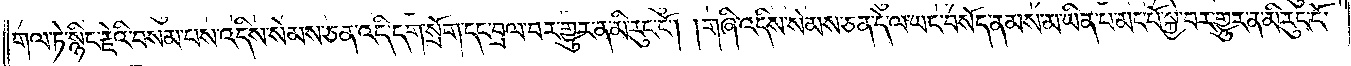གལ་ཏེ་སྙིང་རྗེའི་བསམ་པས་འདིས་སེམས་ཅན་འདི་དག་སྲོག་དང་བྲལ་བར་གྱུར་ན་མི་རུང་ངོ༌། །གཞི་འདིས་སེམས་ཅན་དེ་ལ་ཡང་བསོད་ནམས་མ་ཡིན་པ་མང་པོ་སྐྱེ་བར་གྱུར་ན་མི་རུང་ངོ་
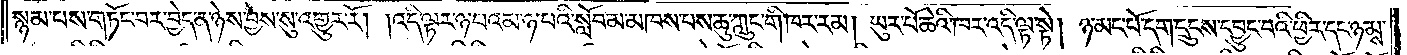སྙམ་པས་གཏོང་བར་བྱེད་ན་ཉེས་བྱས་སུ་འགྱུར་རོ། །འདི་ལྟར་ཉ་པའམ་ཉ་པའི་སློབ་མ་མཁས་པས་ཆུ་ཀླུང་གི་ཁར་རམ། ཡུར་པོ་ཆེའི་ཁར་འདི་ལྟ་སྟེ། ཉ་མང་པོ་དག་དྲུངས་དབྱུང་བའི་ཕྱིར་དང་ཉམས་
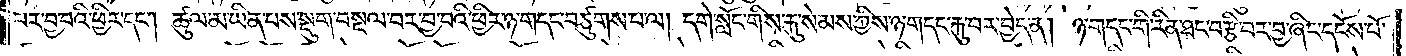པར་བྱ་བའི་ཕྱིར་དང༌། ཚུལ་མ་ཡིན་པས་སྡུག་བསྔལ་བར་བྱ་བའི་ཕྱིར་ཉ་གདང་བཙུགས་པ་ལ། དགེ་སློང་གིས་རྐུ་སེམས་ཀྱིས་ཉ་གདང་རྐུ་བར་བྱེད་ན། ཉ་གདང་གི་རིན་ཐང་བརྩི་བར་བྱ་ཞིང་དངོས་པོ་
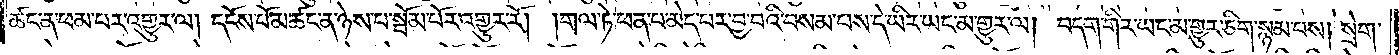ཚང་ན་ཕམ་པར་འགྱུར་ལ། དངོས་པོ་མ་ཚང་ན་ཉེས་པ་སྦོམ་པོར་འགྱུར་རོ། །གལ་ཏེ་ཕན་པ་མེད་པར་བྱ་བའི་བསམ་པས་དེ་ཡིར་ཡང་མ་གྱུར་ལ། བདག་གིར་ཡང་མ་གྱུར་ཅིག་སྙམ་པས། སྲེག་
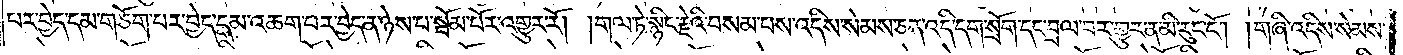པར་བྱེད་དམ་གཅོག་པར་བྱེད་དམ་འཆག་པར་བྱེད་ན་ཉེས་པ་སྦོམ་པོར་འགྱུར་རོ། །གལ་ཏེ་སྙིང་རྗེའི་བསམ་པས་འདིས་སེམས་ཅན་འདི་དག་སྲོག་དང་བྲལ་བར་གྱུར་ན་མི་རུང་ངོ༌། །གཞི་འདིས་སེམས་
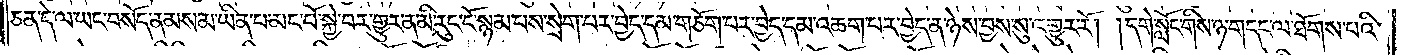ཅན་དེ་ལ་ཡང་བསོད་ནམས་མ་ཡིན་པ་མང་པོ་སྐྱེ་བར་གྱུར་ན་མི་རུང་ངོ་སྙམ་པས་སྲེག་པར་བྱེད་དམ་གཅོག་པར་བྱེད་དམ་འཆག་པར་བྱེད་ན་ཉེས་བྱས་སུ་འགྱུར་རོ། །དགེ་སློང་གིས་ཉ་གདང་ལ་ཐོགས་པའི་
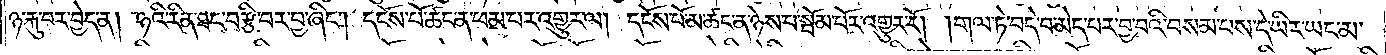ཉ་རྐུ་བར་བྱེད་ན། ཉའི་རིན་ཐང་བརྩི་བར་བྱ་ཞིང༌། དངོས་པོ་ཚང་ན་ཕམ་པར་འགྱུར་ལ། དངོས་པོ་མ་ཚང་ན་ཉེས་པ་སྦོམ་པོར་འགྱུར་རོ། །གལ་ཏེ་བདེ་བ་མེད་པར་བྱ་བའི་བསམ་པས་དེ་ཡིར་ཡང་མ་
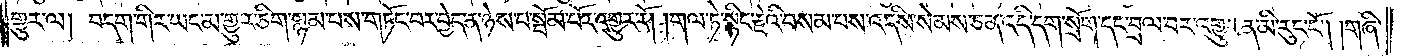གྱུར་ལ། བདག་གིར་ཡང་མ་གྱུར་ཅིག་སྙམ་པས་གཏོང་བར་བྱེད་ན་ཉེས་པ་སྦོམ་པོར་འགྱུར་རོ། །གལ་ཏེ་སྙིང་རྗེའི་བསམ་པས་འདིས་སེམས་ཅན་འདི་དག་སྲོག་དང་བྲལ་བར་འགྱུར་ན་མི་རུང་ངོ༌། །གཞི་
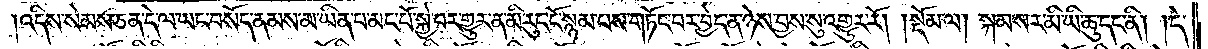འདིས་སེམས་ཅན་དེ་ལ་ཡང་བསོད་ནམས་མ་ཡིན་པ་མང་པོ་སྐྱེ་བར་གྱུར་ན་མི་རུང་ངོ་སྙམ་པས་གཏོང་བར་བྱེད་ན་ཉེས་བྱས་སུ་འགྱུར་རོ། །སྡོམ་ལ། སྐམ་སར་མི་ཡི་ཆུ་དང་ནི། དེ་
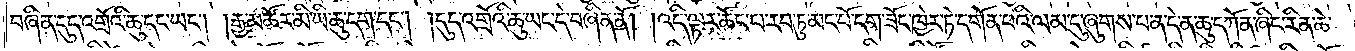བཞིན་དུད་འགྲོའི་ཆུ་དང་ཡང༌། །རྒྱ་མཚོར་མི་ཡི་ཆུ་དག་དང༌། །དུད་འགྲོའི་ཆུ་ཡང་དེ་བཞིན་ནོ། །འདི་ལྟར་ཚོང་པ་རབ་ཏུ་མང་པོ་དག་ཟོང་ཁྱེར་ཏེ་དགོན་པའི་ལམ་དུ་ཞུགས་པ་ན་དེ་ན་ཆུ་དཀོན་ཞིང་རིན་ཆེ་
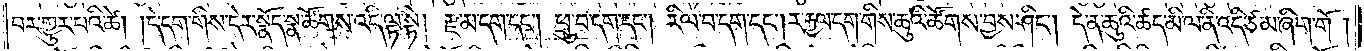བར་གྱུར་པའི་ཚེ། །དེ་དག་གིས་དེར་སྣོད་སྣ་ཚོགས་འདི་ལྟ་སྟེ། རྫ་མ་དག་དང༌། ཕྲུ་བ་དག་དང༌། རིལ་བ་དག་དང༌། ར་རྐྱལ་དག་གིས་ཆུའི་ཚོགས་བྱས་ཤིང༌། དེ་ན་ཆུའི་ཚད་མི་ལ་ནི་འདི་ཙམ་ཞིག་གོ།
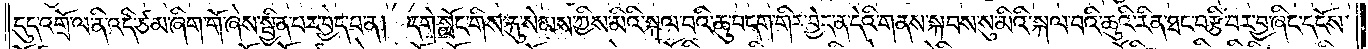དུད་འགྲོ་ལ་ནི་འདི་ཙམ་ཞིག་གོ་ཞེས་སྦྱིན་པར་བྱེད་པ་ན། དགེ་སློང་གིས་རྐུ་སེམས་ཀྱིས་མིའི་སྐལ་བའི་ཆུ་བདག་གིར་བྱེད་ན་དེའི་གནས་སྐབས་སུ་མིའི་སྐལ་བའི་ཆུའི་རིན་ཐང་བརྩི་བར་བྱ་ཞིང་དངོས་
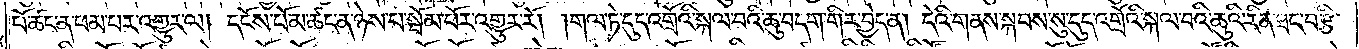པོ་ཚང་ན་ཕམ་པར་འགྱུར་ལ། དངོས་པོ་མ་ཚང་ན་ཉེས་པ་སྦོམ་པོར་འགྱུར་རོ། །གལ་ཏེ་དུད་འགྲོའི་སྐལ་བའི་ཆུ་བདག་གིར་བྱེད་ན། དེའི་གནས་སྐབས་སུ་དུད་འགྲོའི་སྐལ་བའི་ཆུའི་རིན་ཐང་བརྩི་
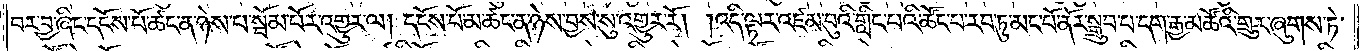བར་བྱ་ཞིང་དངོས་པོ་ཚང་ན་ཉེས་པ་སྦོམ་པོར་འགྱུར་ལ། དངོས་པོ་མ་ཚང་ན་ཉེས་བྱས་སུ་འགྱུར་རོ། །འདི་ལྟར་འཛམ་བུའི་གླིང་པའི་ཚོང་པ་རབ་ཏུ་མང་པོ་ནོར་སྒྲུབ་པ་དག་རྒྱ་མཚོའི་གྲུར་ཞུགས་ཏེ་
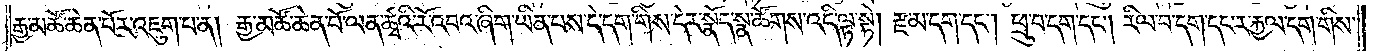རྒྱ་མཚོ་ཆེན་པོར་འཇུག་པ་ན། རྒྱ་མཚོ་ཆེན་པོ་ལན་ཚྭའི་རོ་འབའ་ཞིག་ཡིན་པས་དེ་དག་གིས་དེར་སྣོད་སྣ་ཚོགས་འདི་ལྟ་སྟེ། རྫ་མ་དག་དང༌། ཕྲུ་བ་དག་དང༌། རིལ་བ་དག་དང་ར་རྐྱལ་དག་གིས་
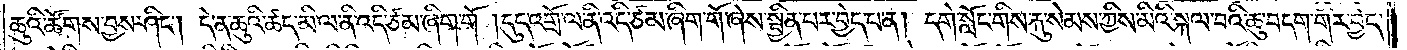ཆུའི་ཚོགས་བྱས་ཤིང༌། དེ་ན་ཆུའི་ཚད་མི་ལ་ནི་འདི་ཙམ་ཞིག་གོ །དུད་འགྲོ་ལ་ནི་འདི་ཙམ་ཞིག་གོ་ཞེས་སྦྱིན་པར་བྱེད་པ་ན། དགེ་སློང་གིས་རྐུ་སེམས་ཀྱིས་མིའི་སྐལ་བའི་ཆུ་བདག་གིར་བྱེད་
